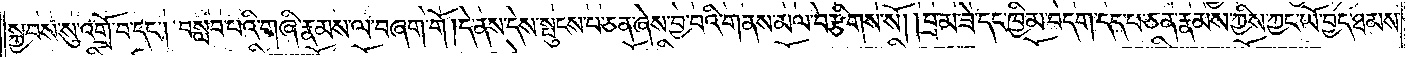སྐྱབས་སུ་འགྲོ་བ་དང༌། བསླབ་པའི་གཞི་རྣམས་ལ་བཞག་གོ །དེ་ནས་དེས་སྤུངས་པ་ཅན་ཞེས་བྱ་བའི་གནས་མལ་བརྩིགས་སོ། །བྲམ་ཟེ་དང་ཁྱིམ་བདག་དད་པ་ཅན་རྣམས་ཀྱིས་ཀྱང་ཡོ་བྱད་ཐམས་
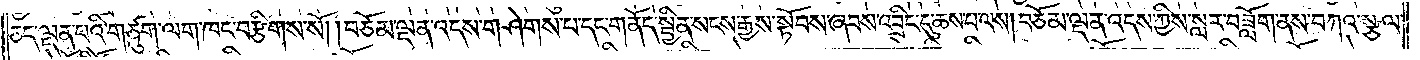ཅད་ལྡན་པའི་གཙུག་ལག་ཁང་བརྩིགས་སོ། །བཅོམ་ལྡན་འདས་གཤེགས་པ་དང་གནོད་སྦྱིན་སངས་རྒྱས་སྟོབས་ཞབས་འབྲིང་དུ་ཆས་པ་ལས། བཅོམ་ལྡན་འདས་ཀྱིས་སླར་བཟློག་ནས་བཀའ་སྩལ་
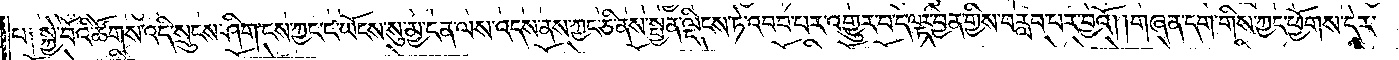པ༑ སྐྱེ་བོའི་ཚོགས་འདི་སྲུངས་ཤིག་ངས་ཀྱང་ང་ཡོངས་སུ་མྱ་ངན་ལས་འདས་ནས་ཀྱང་ཅི་ནས་སྤྱན་ལྡིངས་ཏེ་འབབ་པར་འགྱུར་བ་དེ་ལྟར་བྱིན་གྱིས་བརླབ་པར་བྱའོ། །གཞན་དག་གིས་ཀྱང་ཕྱོགས་དེར་
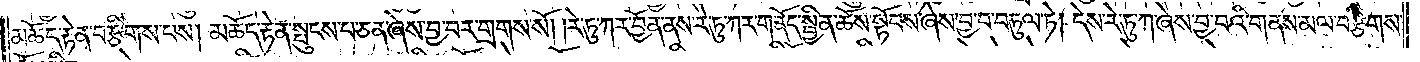མཆོད་རྟེན་བརྩིགས་པས། མཆོད་རྟེན་སྤུངས་པ་ཅན་ཞེས་བྱ་བར་གྲགས་སོ། །རེ་ཏུ་ཀར་བྱོན་ནས་རེ་ཏུ་ཀར་གནོད་སྦྱིན་ཆོས་སྟོབས་ཞེས་བྱ་བ་བཏུལ་ཏེ། དེས་རེ་ཏུ་ཀ་ཞེས་བྱ་བའི་གནས་མལ་བརྩིགས་
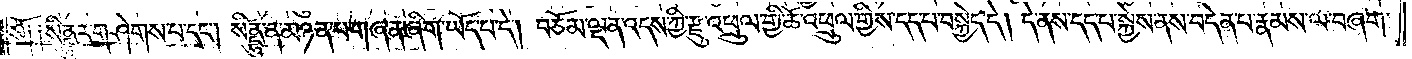སོ༑ ༑སིནྡྷུར་གཤེགས་པ་དང༌། སིནྡྷུ་ན་མཉན་པ་གཞན་ཞིག་ཡོད་པ་དེ། བཅོམ་ལྡན་འདས་ཀྱི་རྫུ་འཕྲུལ་གྱི་ཆོ་འཕྲུལ་གྱིས་དད་པ་བསྐྱེད་དེ། དེ་ནས་དད་པ་སྐྱེས་ནས་བདེན་པ་རྣམས་ལ་བཞག་
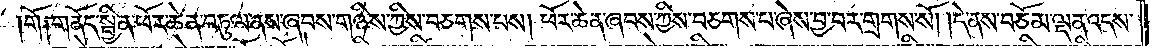གོ༑ གནོད་སྦྱིན་ཕོར་ཆེན་བཏུལ་ནས་ཞབས་གཉིས་ཀྱིས་བཅགས་པས། ཕོར་ཆེན་ཞབས་ཀྱིས་བཅགས་པ་ཞེས་བྱ་བར་གྲགས་སོ། །དེ་ནས་བཅོམ་ལྡན་འདས་
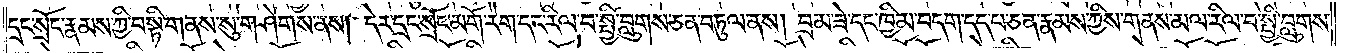དྲང་སྲོང་རྣམས་ཀྱི་བསྟི་གནས་སུ་གཤེགས་ནས། དེར་དྲང་སྲོང་མགོ་རེག་དང་རིལ་བ་སྤྱི་བླུགས་ཅན་བཏུལ་ནས། བྲམ་ཟེ་དང་ཁྱིམ་བདག་དད་པ་ཅན་རྣམས་ཀྱིས་གནས་མལ་རིལ་བ་སྤྱི་བླུགས་
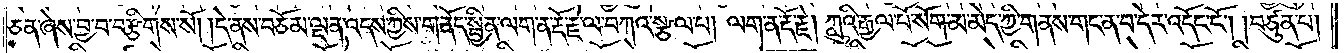ཅན་ཞེས་བྱ་བ་བརྩིགས་སོ། །དེ་ནས་བཅོམ་ལྡན་འདས་ཀྱིས་གནོད་སྦྱིན་ལག་ན་རྡོ་རྗེ་ལ་བཀའ་སྩལ་པ། ལག་ན་རྡོ་རྗེ། ཀླུའི་རྒྱལ་པོ་སོག་མ་མེད་ཀྱི་གནས་གང་ན་བ་དེར་འདོང་ངོ༌། །བཙུན་པ།
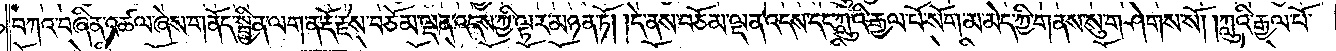བཀའ་བཞིན་འཚལ་ཞེས་གནོད་སྦྱིན་ལག་ན་རྡོ་རྗེས་བཅོམ་ལྡན་འདས་ཀྱི་ལྟར་མཉན་ཏོ། །དེ་ནས་བཅོམ་ལྡན་འདས་དང་ཀླུའི་རྒྱལ་པོ་སོག་མ་མེད་ཀྱི་གནས་སུ་གཤེགས་སོ། །ཀླུའི་རྒྱལ་པོ་
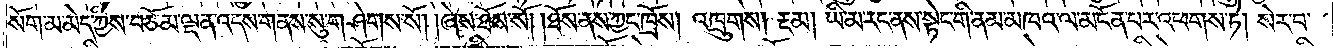སོག་མ་མེད་ཀྱིས་བཅོམ་ལྡན་འདས་གནས་སུ་གཤེགས་སོ། །ཞེས་ཐོས་སོ། །ཐོས་ནས་ཀྱང་ཁྲོས། འཁྲུགས། རྔམ། ཡི་མ་རང་ནས་སྟེང་གི་ནམ་མཁའ་ལ་མངོན་པར་འཕགས་ཏེ། སེར་བ་
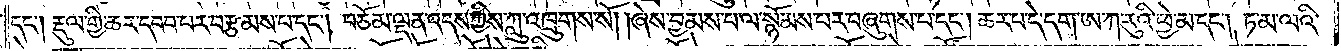དང༌། རྡུལ་གྱི་ཆར་དབབ་པར་བརྩམས་པ་དང༌། བཅོམ་ལྡན་འདས་ཀྱིས་ཀླུ་འཁྲུགས་སོ། །ཞེས་བྱམས་པ་ལ་སྙོམས་པར་བཞུགས་པ་དང༌། ཆར་པ་དེ་དག་ཨ་ཀ་རུའི་ཕྱེ་མ་དང༌། ཏ་མ་ལའི་
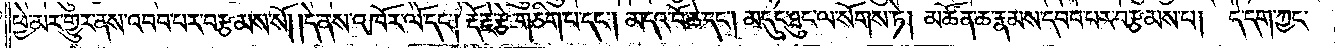ཕྱེ་མར་གྱུར་ནས་འབབ་པར་བརྩམས་སོ། །དེ་ནས་འཁོར་ལོ་དང༌། རྡོ་རྗེ་རྩེ་གཅིག་པ་དང༌། མདའ་བོ་ཆེ་དང༌། མདུང་ཐུང་ལ་སོགས་ཏེ། མཚོན་ཆ་རྣམས་དབབ་པར་བརྩམས་པ། དེ་དག་ཀྱང་
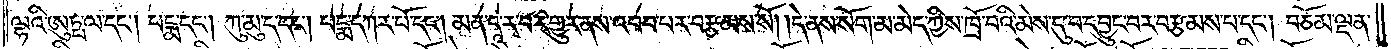ལྷའི་ཨུཏྤ་ལ་དང༌། པདྨ་དང༌། ཀུ་མུ་ད་དང༌། པདྨ་དཀར་པོ་དང༌། མན་དཱ་ར་བར་གྱུར་ནས་འབབ་པར་བརྩམས་སོ། །དེ་ནས་སོག་མ་མེད་ཀྱིས་ཁྲོ་བའི་མེས་དུ་བ་དབྱུང་བར་བརྩམས་པ་དང༌། བཅོམ་ལྡན་
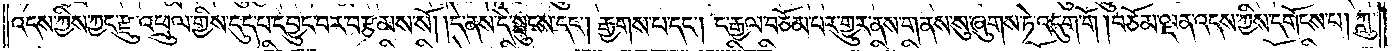འདས་ཀྱིས་ཀྱང་རྫུ་འཕྲུལ་གྱིས་དུད་པ་དབྱུང་བར་བརྩམས་སོ། །དེ་ནས་དེ་སྤུངས་དང༌། རྒྱགས་པ་དང༌། ང་རྒྱལ་བཅོམ་པར་གྱུར་ནས་གནས་སུ་ཞུགས་ཏེ་འདུག་གོ །བཅོམ་ལྡན་འདས་ཀྱིས་དགོངས་པ། ཀླུ་
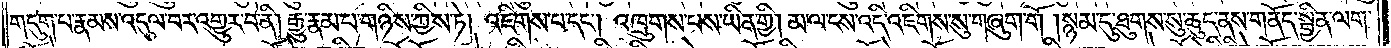གདུག་པ་རྣམས་འདུལ་བར་འགྱུར་བ་ནི། རྒྱུ་རྣམ་པ་གཉིས་ཀྱིས་ཏེ། འཇིགས་པ་དང༌། འཁྲུགས་པས་ཡིན་གྱི། མ་ལ་ངས་འདི་འཇིགས་སུ་གཞུག་གོ །སྙམ་དུ་ཐུགས་སུ་ཆུད་ནས་གནོད་སྦྱིན་ལག་
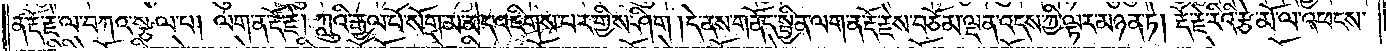ན་རྡོ་རྗེ་ལ་བཀའ་སྩལ་པ། ལག་ན་རྡོ་རྗེ། ཀླུའི་རྒྱལ་པོ་སོག་མ་མེད་འཇིགས་པར་གྱིས་ཤིག །དེ་ནས་གནོད་སྦྱིན་ལག་ན་རྡོ་རྗེས་བཅོམ་ལྡན་འདས་ཀྱི་ལྟར་མཉན་ཏེ། རྡོ་རྗེ་རིའི་རྩེ་མོ་ལ་འཕངས་
